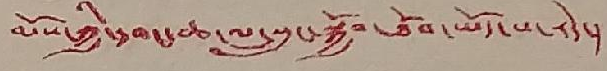མོས་ཀྱི་དབང་ཆ་ལ་སྲུང་སྐྱོབ་ཐོབ་ཡོདཔ་རེད་།
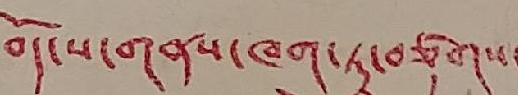བོད་ས་གནས་ཁག་ཏུ་བཙུགས་
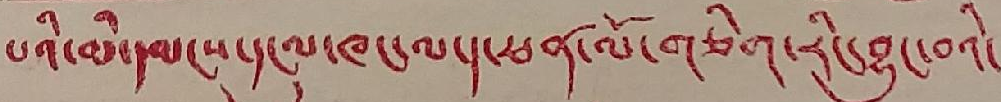པའི་མི་དམངས་དངུལ་ཁང་ལ་ད་ཕན་ལོ་གཅིག་རིང་བྱུང་བའི་
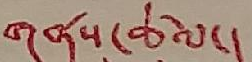གནས་ཚུལ་།
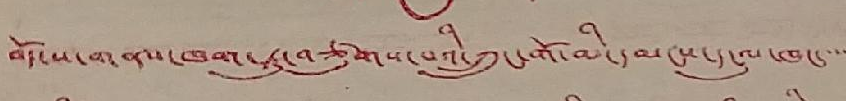བོད་ས་གནས་ཁག་ཏུ་བཙུགས་པའི་ཀྲུང་གོ་མི་དམངས་དངུལ་ཁང་་་་་
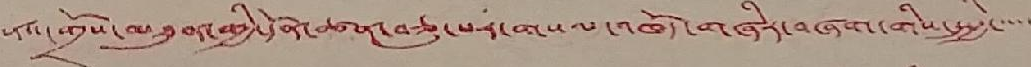ནས་གྲོས་མཐུན་གྱི་དོན་ཚན་བཅུ་པར་གསལ་འཁོད་གཞིར་བཞག་གིས་སྤྱི་་་་་
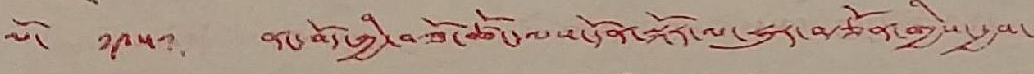ལོ་ ༡༩༥༡ ནང་བོད་ཀྱི་བཟོ་ཚོང་ལས་དོན་སྐོར་ལ་ཧུར་བརྩོན་གྱིས་རྒྱབ་
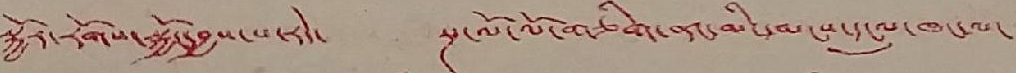སྐྱོར་རོགས་སྐྱོང་བྱས་པ་རེད་ སྔ་ལོ་ལོ་གཅིག་ནང་མི་དམངས་དངུལ་ཁང་ལ་
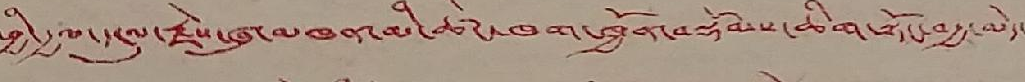ཕྱི་རྒྱལ་དངུལ་རྗེས་ཞུ་མཁན་མི་ཚང་ཁག་ཁྱོན་བསྡོམས་ཆིག་སྟོང་བརྒྱ་མེད་
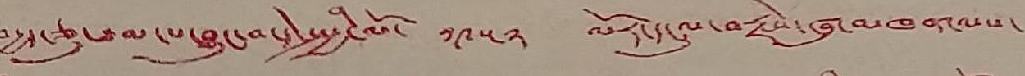བརྒྱད་ཅུ་ཐམ་པ་བྱུང་བ་དེ་སྤྱི་ལོ་ ༡༩༥༢ ལོར་དངུལ་བརྗེས་ཞུ་མཁན་ལས་
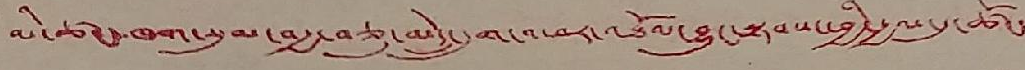མི་ཚང་ཁག་སུམ་བརྒྱ་བཅུ་མེད་དྲུག་འཕར་འཐོལ་བྱུང་སྟབས་ཕྱི་རྒྱལ་དུ་ཚོང་
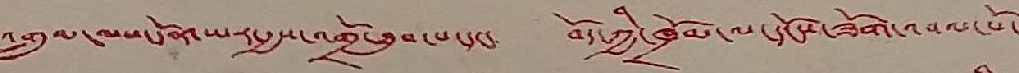འགྲུལ་ལས་དོན་ཡར་རྒྱས་འགྲོ་ཐུབ་པ་དང་ བོད་ཀྱི་ཁྲོམ་ལ་དངོས་ཟོག་འབལ་པོ་
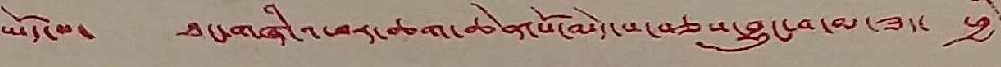ཡོད་པ་ ཐང་གཞི་འཕར་ཆག་ཆེན་པོ་མེད་པ་བཅས་བྱུང་བ་མ་ཟད་ ཕྱི་
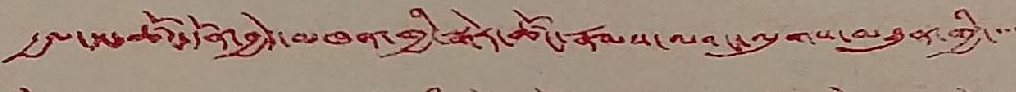རྒྱལ་མཚོང་དོན་བྱེད་མཁན་གྱི་སྒེར་ཚོང་རྣམས་ལའང་ལུགས་མཐུན་གྱི་་་་་
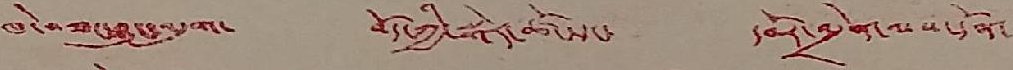ཁེ་བཟང་བྱུང་འདུག་ བོད་ཀྱི་སྒེར་ཚོང་དང་ དབོར་འདྲེན་ལས་དོན་
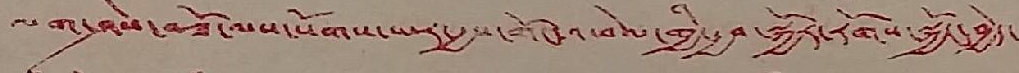ལག་ཤེས་བཟོ་ལས་སོགས་ཡར་རྒྱས་གོང་འཕེལ་གྱི་རྒྱབ་སྐྱོར་རོགས་སྐྱོང་བྱེད་
